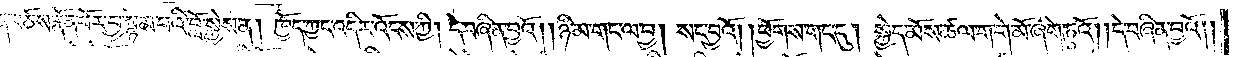གི་ཕྱིར་རྒོལ་བའི་བསྟན་བཅོས་རྣོན་པོར་བྱ་སྙམ་པའི་བློ་སྐྱེས་ན། ཁྱོད་ཀྱང་འདིར་འོངས་ཀྱི། དེ་བཞིན་བྱའོ། །ཉི་མ་གང་ལ་བྱ། སང་བྱའོ། །ཕྱོགས་གང་དུ། སྐྱེད་མོས་ཚལ་ག་གེ་མོ་ཞིག་ཏུའོ། །དེ་བཞིན་བྱའོ༎
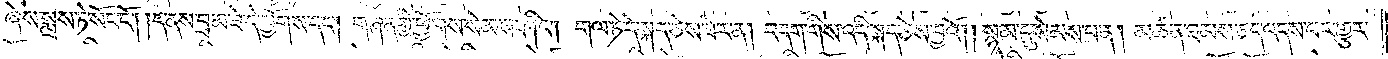ཞེས་སྨྲས་ཏེ་སོང་ངོ༌། །དེ་ནས་བྲམ་ཟེ་དེ་ཕྱོགས་དང༌། གཞན་གྱི་ཕྱོགས་སེམས་ཤིང༌། གལ་ཏེ་དེ་སྐད་ཅེས་ཟེར་ན། བདག་གིས་འདི་སྐད་ཅེས་བྱའོ། །སྙམ་དུ་སེམས་པ་ན། མཚན་ཐམས་ཅད་འདས་པར་གྱུར་
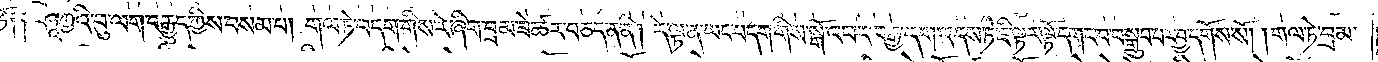ཏོ༑ ༑ཤཱཀྱའི་བུ་ལག་བརྒྱུད་ཀྱིས་བསམ་པ། གལ་ཏེ་བདག་གིས་རེ་ཞིག་བྲམ་ཟེ་ཚར་བཅད་ན་ནི། དེ་ལྟ་ན་ཡང་བདག་གིས་སྒོ་འཕར་བརྒྱ་དག་འདས་ཏེ་ཇི་ལྟར་ལྟོ་དགང་བ་བསྒྲུབ་པར་བྱ་དགོས་སོ། །གལ་ཏེ་བྲམ་
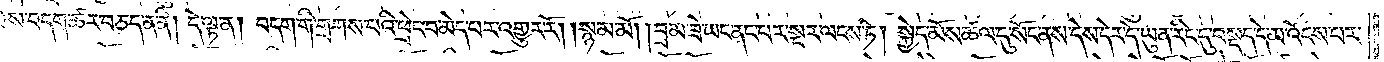ཟེས་བདག་ཚར་བཅད་ན་ནི། དེ་ལྟ་ན། བདག་གི་གྲགས་པའི་ཕྲེང་བ་མེད་པར་འགྱུར་རོ། །སྙམ་མོ། །བྲམ་ཟེ་ཡང་ནང་པར་སྔར་ལངས་ཏེ། སྐྱེད་མོས་ཚལ་དུ་སོང་ནས་དེས་དེར་དེ་ཡུན་རིང་དུ་བསྡད་དེ་མ་འོངས་པར་
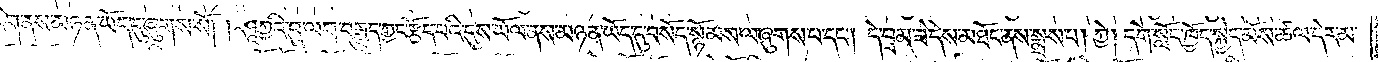རིག་ནས་མཉན་ཡོད་དུ་ཞུགས་སོ། །ཤཱཀྱའི་བུ་ལག་བརྒྱུད་ཀྱང་རྩོད་པའི་དུས་ཡོལ་ནས་མཉན་ཡོད་དུ་བསོད་སྙོམས་ལ་ཞུགས་པ་དང༌། དེ་བྲམ་ཟེ་དེས་མཐོང་ནས་སྨྲས་པ། ཀྱེ། དགེ་སློང་ཁྱོད་སྐྱེད་མོས་ཚལ་དེར་མ་
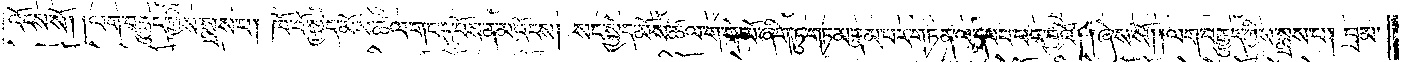འོངས་སོ། །ལག་བརྒྱུད་ཀྱིས་སྨྲས་པ། ཁོ་བོ་སྐྱེད་མོས་ཚལ་གང་དུ་བོས་ན་མ་འོངས། སང་སྐྱེད་མོས་ཚལ་ག་གེ་མོ་ཞིག་ཏུ་གཏམ་རྣམ་པར་གཏན་ལ་དབབ་པར་བྱའོ། །ཞེས་སོ། །ལག་བརྒྱུད་ཀྱིས་སྨྲས་པ། བྲམ་
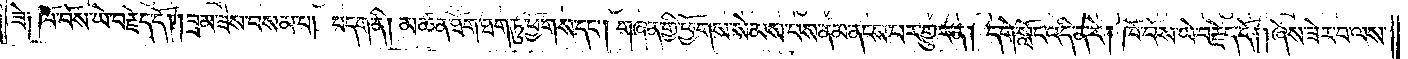ཟེ༑ ཁོ་བོས་ཡེ་བརྗེད་དོ། །བྲམ་ཟེས་བསམ་པ། བདག་ནི། མཚན་ཐོག་ཐག་ཏུ་ཕྱོགས་དང༌། གཞན་གྱི་ཕྱོགས་སེམས་པས་ནམ་ནངས་པར་གྱུར་ན། དགེ་སློང་འདི་ན་རེ། ཁོ་བོས་ཡེ་བརྗེད་དོ། །ཞེས་ཟེར་བ་ལས་
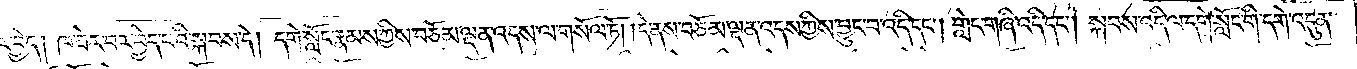བར་བྱེད། ཁ་ཟེར་བར་བྱེད་པའི་སྐབས་དེ། དགེ་སློང་རྣམས་ཀྱིས་བཅོམ་ལྡན་འདས་ལ་གསོལ་ཏོ། །དེ་ནས་བཅོམ་ལྡན་འདས་ཀྱིས་བྱུང་བ་འདི་དང༌། གླེང་གཞི་འདི་དང༌། སྐབས་འདི་ལ་དགེ་སློང་གི་དགེ་འདུན་
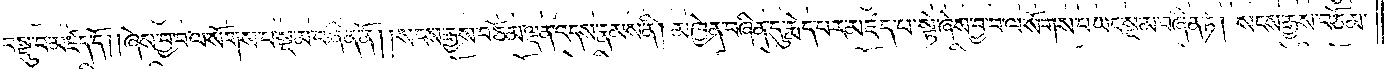བསྡུ་བ་མཛད་དོ། །ཞེས་བྱ་བ་ལ་སོགས་པ་སྔ་མ་བཞིན་ནོ། །སངས་རྒྱས་བཅོམ་ལྡན་འདས་རྣམས་ནི། མཁྱེན་བཞིན་དུ་རྨེད་པར་མཛད་པ་སྟེ་ཞེས་བྱ་བ་ལ་སོགས་པ་ཡང་སྔ་མ་བཞིན་ཏེ། སངས་རྒྱས་བཅོམ་
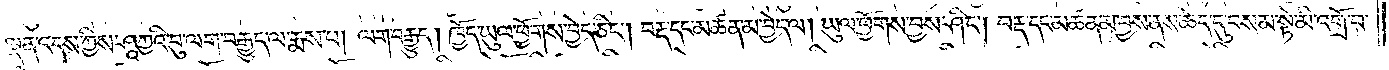ལྡན་འདས་ཀྱིས་ཤཱཀྱའི་བུ་ལག་བརྒྱུད་ལ་རྨས་པ། ལག་བརྒྱུད། ཁྱོད་ཡུལ་ཕྱོགས་བྱེད་ཅིང༌། བརྡ་དང་མཚན་མ་བྱེད་ལ། ཡུལ་ཕྱོགས་བྱས་ཤིང༌། བརྡ་དང་མཚན་མ་བྱས་ནས་ཆེད་དུ་བསམ་སྟེ་མི་འགྲོ་བ་
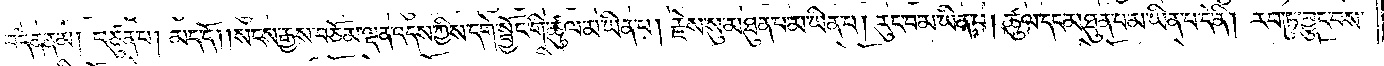བདེན་ནམ། བཙུན་པ། མད་དོ། །སངས་རྒྱས་བཅོམ་ལྡན་འདས་ཀྱིས་དགེ་སྦྱོང་གི་ཚུལ་མ་ཡིན་པ། རྗེས་སུ་མཐུན་པ་མ་ཡིན་པ། རུང་བ་མ་ཡིན་པ། ཚུལ་དང་མཐུན་པ་མ་ཡིན་པ་དེ་ནི། རབ་ཏུ་བྱུང་བས་
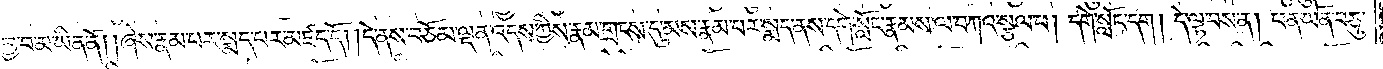བྱ་བ་མ་ཡིན་ནོ། །ཞེས་རྣམ་པར་སྨད་པར་མཛད་དོ། །དེ་ནས་བཅོམ་ལྡན་འདས་ཀྱིས་རྣམ་གྲངས་དུ་མས་རྣམ་པར་སྨད་ནས་དགེ་སློང་རྣམས་ལ་བཀའ་སྩལ་པ། དགེ་སློང་དག། དེ་ལྟ་བས་ན། ཕན་ཡོན་བཅུ་
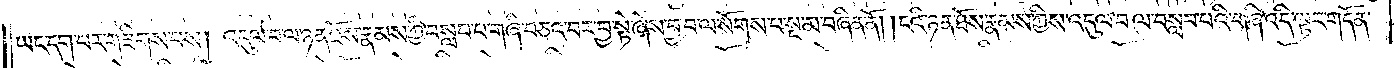ཡང་དག་པར་གཟིགས་པས། འདུལ་བ་ལ་ཉན་ཐོས་རྣམས་ཀྱི་བསླབ་པ་གཞི་བཅའ་བར་བྱ་སྟེ་ཞེས་བྱ་བ་ལ་སོགས་པ་སྔ་མ་བཞིན་ནོ། །ངའི་ཉན་ཐོས་རྣམས་ཀྱིས་འདུལ་བ་ལ་བསླབ་པའི་གཞི་འདི་ལྟར་གདོན་
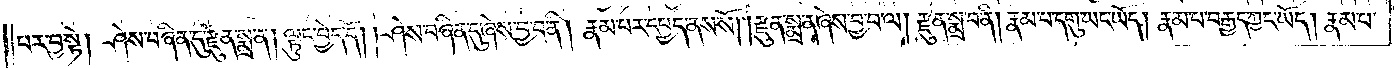བར་བྱ་སྟེ། ཤེས་བཞིན་དུ་རྫུན་སྨྲ་ན། ལྟུང་བྱེད་དོ། །ཤེས་བཞིན་དུ་ཞེས་བྱ་བ་ནི། རྣམ་པར་དཔྱད་ནས་སོ། །རྫུན་སྨྲ་ན་ཞེས་བྱ་བ་ལ། རྫུན་སྨྲ་བ་ནི། རྣམ་པ་དགུ་ཡང་ཡོད། རྣམ་པ་བརྒྱད་ཀྱང་ཡོད། རྣམ་པ་
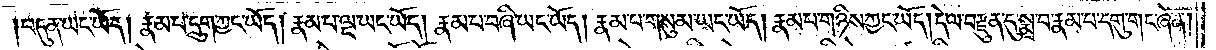བདུན་ཡང་ཡོད། རྣམ་པ་དྲུག་ཀྱང་ཡོད། རྣམ་པ་ལྔ་ཡང་ཡོད། རྣམ་པ་བཞི་ཡང་ཡོད། རྣམ་པ་གསུམ་ཡང་ཡོད། རྣམ་པ་གཉིས་ཀྱང་ཡོད། དེ་ལ་བརྫུན་དུ་སྨྲ་བ་རྣམ་པ་དགུ་གང་ཞེ་ན།
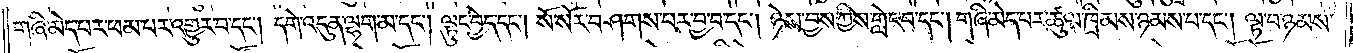གཞི་མེད་པར་ཕམ་པར་འགྱུར་བ་དང༌། དགེ་འདུན་ལྷག་མ་དང༌། ལྟུང་བྱེད་དང༌། སོ་སོར་བཤགས་པར་བྱ་བ་དང༌། ཉེས་བྱས་ཀྱིས་གླེང་བ་དང༌། གཞི་མེད་པར་ཚུལ་ཁྲིམས་ཉམས་པ་དང༌། ལྟ་བ་ཉམས་
